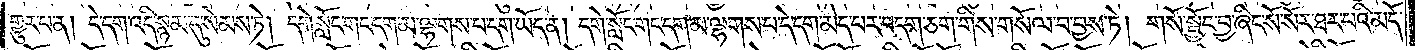གྱུར་པ་ན། དེ་དག་འདི་སྙམ་དུ་སེམས་ཏེ། དགེ་སློང་གང་དག་མ་ལྷགས་པ་དག་ཡོད་ན། དགེ་སློང་གང་དག་མ་ལྷགས་པ་དེ་དག་མེད་པར་བདག་ཅག་གིས་གསོལ་བ་བྱས་ཏེ། གསོ་སྦྱོང་བྱ་ཞིང་སོ་སོར་ཐར་པའི་མདོ་
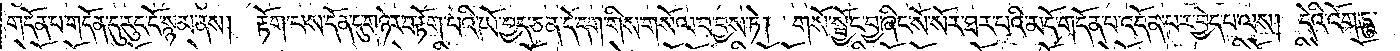གདོན་པ་གདོན་དུ་རུང་ངོ་སྙམ་ནས། རྟོག་པས་དོན་དུ་གཉེར་བ་རྟོག་པའི་ཡོ་བྱད་ཅན་དེ་དག་གིས་གསོལ་བ་བྱས་ཏེ། གསོ་སྦྱོང་བྱ་ཞིང་སོ་སོར་ཐར་པའི་མདོ་གདོན་པ་འདོན་པར་བྱེད་པ་ལས། དེའི་འོག་ཏུ་
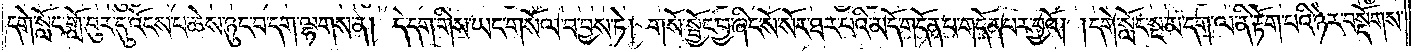དགེ་སློང་གློ་བུར་དུ་འོངས་པ་ཆེས་ཉུང་བ་དག་ལྷགས་ན། དེ་དག་གིས་ཡང་གསོལ་བ་བྱས་ཏེ། གསོ་སྦྱོང་བྱ་ཞིང་སོ་སོར་ཐར་པའི་མདོ་གདོན་པ་གདོན་པར་བྱའོ། །དགེ་སློང་སྔ་མ་དག་ལ་ནི་རྟོག་པའི་ཉེར་བསྡོགས་
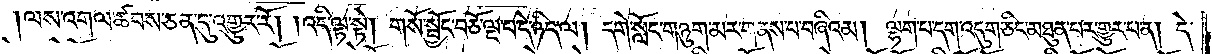།ལས་འགལ་ཚབས་ཅན་དུ་འགྱུར་རོ། །འདི་ལྟ་སྟེ། གསོ་སྦྱོང་བཅོ་ལྔ་པ་དེ་ཉིད་ལ། དགེ་སློང་གཉུག་མར་གནས་པ་བཞིའམ། ལྷག་པ་དག་འདུག་ཅིང་མཐུན་པར་གྱུར་པ་ན། དེ་
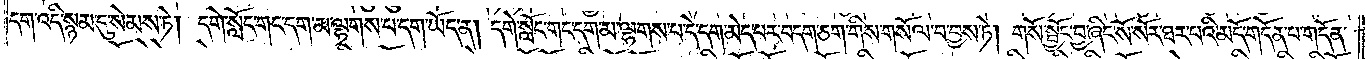དག་འདི་སྙམ་དུ་སེམས་ཏེ། དགེ་སློང་གང་དག་མ་ལྷགས་པ་དག་ཡོད་ན། དགེ་སློང་གང་དག་མ་ལྷགས་པ་དེ་དག་མེད་པར་བདག་ཅག་གིས་གསོལ་བ་བྱས་ཏེ། གསོ་སྦྱོང་བྱ་ཞིང་སོ་སོར་ཐར་བའི་མདོ་གདོན་པ་གདོན་
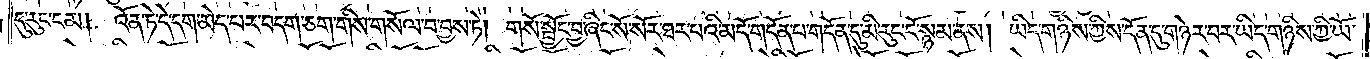དུ་རུང་ངམ། འོན་ཏེ་དེ་དག་མེད་པར་བདག་ཅག་གིས་གསོལ་བ་བྱས་ཏེ། གསོ་སྦྱོང་བྱ་ཞིང་སོ་སོར་ཐར་པའི་མདོ་གདོན་པ་གདོན་དུ་མི་རུང་ངོ་སྙམ་ནས། ཡིད་གཉིས་ཀྱིས་དོན་དུ་གཉེར་བར་ཡིད་གཉིས་ཀྱི་ཡོ་
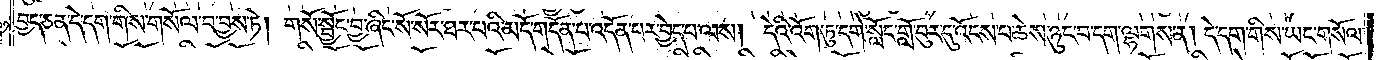བྱད་ཅན་དེ་དག་གིས་གསོལ་བ་བྱས་ཏེ། གསོ་སྦྱོང་བྱ་ཞིང་སོ་སོར་ཐར་པའི་མདོ་གདོན་པ་འདོན་པར་བྱེད་པ་ལས། དེའི་འོག་ཏུ་དགེ་སློང་གློ་བུར་དུ་འོངས་པ་ཆེས་ཉུང་བ་དག་ལྷགས་ན། དེ་དག་གིས་ཡང་གསོལ་
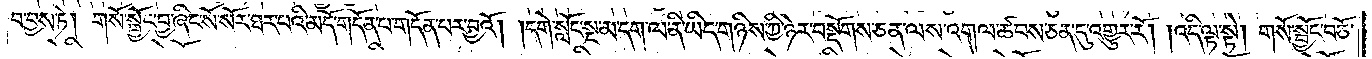བ་བྱས་ཏེ། གསོ་སྦྱོང་བྱ་ཞིང་སོ་སོར་ཐར་པའི་མདོ་གདོན་པ་གདོན་པར་བྱའོ། །དགེ་སློང་སྔ་མ་དག་ལ་ནི་ཡིད་གཉིས་ཀྱི་ཉེར་བསྡོགས་ཅན་ལས་འགལ་ཚབས་ཅན་དུ་འགྱུར་རོ། །འདི་ལྟ་སྟེ། གསོ་སྦྱོང་བཅོ་
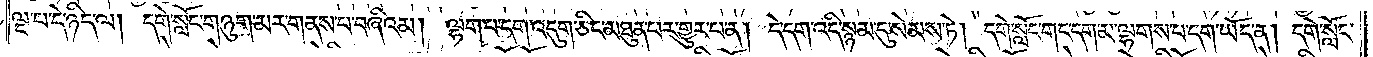ལྔ་པ་དེ་ཉིད་ལ། དགེ་སློང་གཉུག་མར་གནས་པ་བཞིའམ། ལྷག་པ་དག་འདུག་ཅིང་མཐུན་པར་གྱུར་པ་ན། དེ་དག་འདི་སྙམ་དུ་སེམས་ཏེ། དགེ་སློང་གང་དག་མ་ལྷགས་པ་དག་ཡོད་ན། དགེ་སློང་
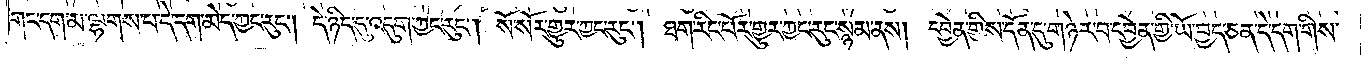གང་དག་མ་ལྷགས་པ་དེ་དག་མེད་ཀྱང་རུང༌། དེ་ཉིད་དུ་འདུག་ཀྱང་རུང༌། སོ་སོར་གྱུར་ཀྱང་རུང༌། ཐག་རིང་པོར་གྱུར་ཀྱང་རུང་སྙམ་ནས། དབྱེན་གྱིས་དོན་དུ་གཉེར་བ་དབྱེན་གྱི་ཡོ་བྱད་ཅན་དེ་དག་གིས་
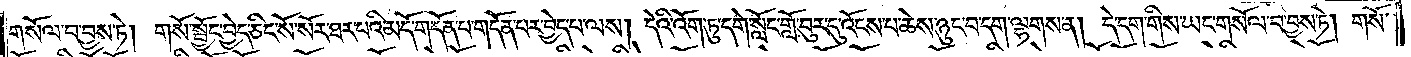གསོལ་བ་བྱས་ཏེ། གསོ་སྦྱོང་བྱེད་ཅིང་སོ་སོར་ཐར་པའི་མདོ་གདོན་པ་གདོན་པར་བྱེད་པ་ལས། དེའི་འོག་ཏུ་དགེ་སློང་གློ་བུར་དུ་འོངས་པ་ཆེས་ཉུང་བདག་ལྷགས་ན། དེ་དག་གིས་ཡང་གསོལ་བ་བྱས་ཏེ། གསོ་
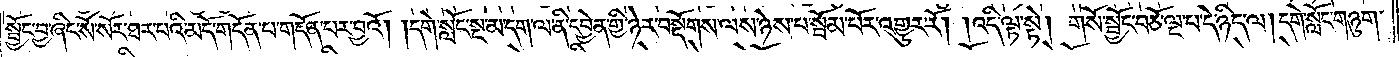སྦྱོང་བྱ་ཞིང་སོ་སོར་ཐར་པའི་མདོ་གདོན་པ་གདོན་པར་བྱའོ། །དགེ་སློང་སྔ་མ་དག་ལ་ནི་དབྱེན་གྱི་ཉེར་བསྡོགས་ལས་ཉེས་པ་སྦོམ་པོར་འགྱུར་རོ། །འདི་ལྟ་སྟེ། གསོ་སྦྱོང་བཅོ་ལྔ་པ་དེ་ཉིད་ལ། དགེ་སློང་གཉུག་
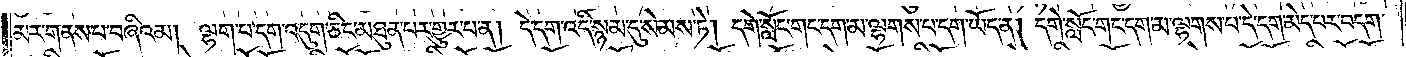མར་གནས་པ་བཞིའམ། ལྷག་པ་དག་འདུག་ཅིང་མཐུན་པར་གྱུར་པ་ན། དེ་དག་འདི་སྙམ་དུ་སེམས་ཏེ། དགེ་སློང་གང་དག་མ་ལྷགས་པ་དག་ཡོད་ན། དགེ་སློང་གང་དག་མ་ལྷགས་པ་དེ་དག་མེད་པར་བདག་
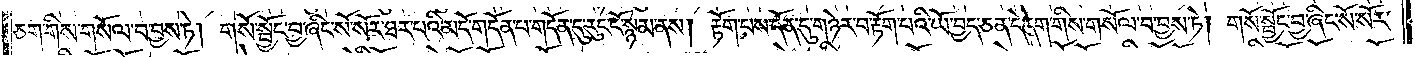ཅག་གིས་གསོལ་བ་བྱས་ཏེ། གསོ་སྦྱོང་བྱ་ཞིང་སོ་སོར་ཐར་པའི་མདོ་གདོན་པ་གདོན་དུ་རུང་ངོ་སྙམ་ནས། རྟོག་པས་དོན་དུ་གཉེར་བ་རྟོག་པའི་ཡོ་བྱད་ཅན་དེ་དག་གིས་གསོལ་བ་བྱས་ཏེ། གསོ་སྦྱོང་བྱ་ཞིང་སོ་སོར་
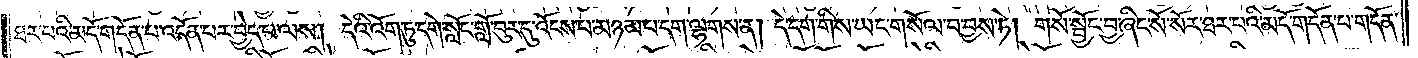ཐར་པའི་མདོ་གདོན་པ་འདོན་པར་བྱེད་པ་ལས། དེའི་འོག་ཏུ་དགེ་སློང་གློ་བུར་དུ་འོངས་པ་མཉམ་པ་དག་ལྷགས་ན། དེ་དག་གིས་ཡང་གསོལ་བ་བྱས་ཏེ། གསོ་སྦྱོང་བྱ་ཞིང་སོ་སོར་ཐར་པའི་མདོ་གདོན་པ་གདོན་
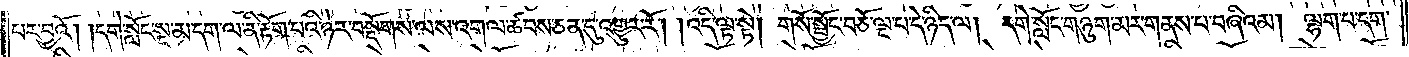པར་བྱའོ། །དགེ་སློང་སྔ་མ་དག་ལ་ནི་རྟོག་པའི་ཉེར་བསྡོགས་ལས་འགལ་ཚབས་ཅན་དུ་འགྱུར་རོ། །འདི་ལྟ་སྟེ། གསོ་སྦྱོང་བཅོ་ལྔ་པ་དེ་ཉིད་ལ། དགེ་སློང་གཉུག་མར་གནས་པ་བཞིའམ། ལྷག་པ་དག་
